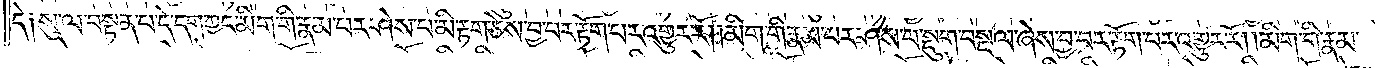དེ༑ སུ་ལ་བསྟན་པ་དེ་དག་ཀྱང་མིག་གི་རྣམ་པར་ཤེས་པ་མི་རྟག་ཅེས་བྱ་བར་རྟོག་པར་འགྱུར་རོ། །མིག་གི་རྣམ་པར་ཤེས་པ་སྡུག་བསྔལ་ཞེས་བྱ་བར་རྟོག་པར་འགྱུར་རོ། །མིག་གི་རྣམ་
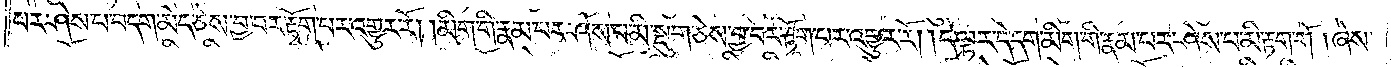པར་ཤེས་པ་བདག་མེད་ཅེས་བྱ་བར་རྟོག་པར་འགྱུར་རོ། །མིག་གི་རྣམ་པར་ཤེས་པ་མི་སྡུག་ཅེས་བྱ་བར་རྟོག་པར་འགྱུར་རོ། །དེ་ལྟར་དེ་དག་མིག་གི་རྣམ་པར་ཤེས་པ་མི་རྟག་གོ། །ཞེས་
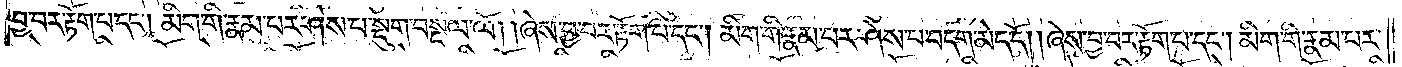བྱ་བར་རྟོག་པ་དང༌། མིག་གི་རྣམ་པར་ཤེས་པ་སྡུག་བསྔལ་ལོ། །ཞེས་བྱ་བར་རྟོག་པ་དང༌། མིག་གི་རྣམ་པར་ཤེས་པ་བདག་མེད་དོ། །ཞེས་བྱ་བར་རྟོག་པ་དང༌། མིག་གི་རྣམ་པར་
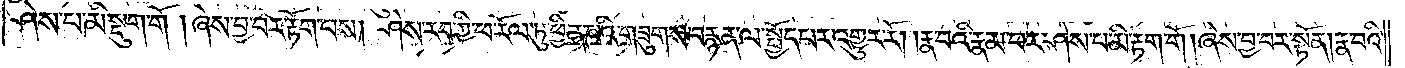ཤེས་པ་མི་སྡུག་གོ། ཞེས་བྱ་བར་རྟོག་པས། ཤེས་རབ་ཀྱི་ཕ་རོལ་ཏུ་ཕྱིན་པའི་གཟུགས་བརྙན་ལ་སྤྱོད་པར་འགྱུར་རོ། །རྣ་བའི་རྣམ་པར་ཤེས་པ་མི་རྟག་གོ། ཞེས་བྱ་བར་སྟོན། རྣ་བའི་
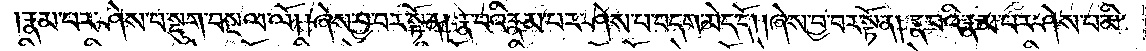རྣམ་པར་ཤེས་པ་སྡུག་བསྔལ་ལོ། །ཞེས་བྱ་བར་སྟོན། རྣ་བའི་རྣམ་པར་ཤེས་པ་བདག་མེད་དོ། །ཞེས་བྱ་བར་སྟོན། རྣ་བའི་རྣམ་པར་ཤེས་པ་མི་
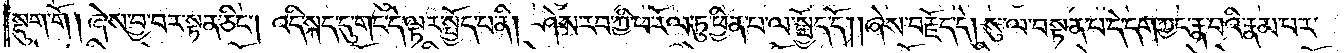སྡུག་གོ། ཞེས་བྱ་བར་སྟོན་ཅིང༌། འདི་སྐད་དུ་གང་དེ་ལྟར་སྤྱོད་པ་ནི། ཤེས་རབ་ཀྱི་ཕ་རོལ་ཏུ་ཕྱིན་པ་ལ་སྤྱོད་དོ། །ཞེས་བརྗོད་དེ། སུ་ལ་བསྟན་པ་དེ་དག་ཀྱང་རྣ་བའི་རྣམ་པར་
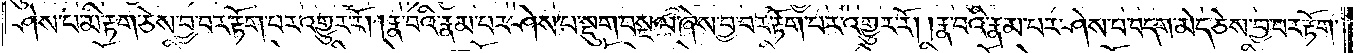ཤེས་པ་མི་རྟག་ཅེས་བྱ་བར་རྟོག་པར་འགྱུར་རོ། །རྣ་བའི་རྣམ་པར་ཤེས་པ་སྡུག་བསྔལ་ཞེས་བྱ་བར་རྟོག་པར་འགྱུར་རོ། །རྣ་བའི་རྣམ་པར་ཤེས་པ་བདག་མེད་ཅེས་བྱ་བར་རྟོག་
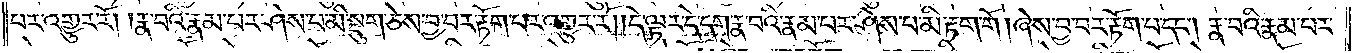པར་འགྱུར་རོ། །རྣ་བའི་རྣམ་པར་ཤེས་པ་མི་སྡུག་ཅེས་བྱ་བར་རྟོག་པར་འགྱུར་རོ། །དེ་ལྟར་དེ་དག་རྣ་བའི་རྣམ་པར་ཤེས་པ་མི་རྟག་གོ། ཞེས་བྱ་བར་རྟོག་པ་དང༌། རྣ་བའི་རྣམ་པར་
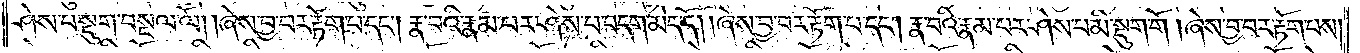ཤེས་པ་སྡུག་བསྔལ་ལོ། །ཞེས་བྱ་བར་རྟོག་པ་དང༌། རྣ་བའི་རྣམ་པར་ཤེས་པ་བདག་མེད་དོ། །ཞེས་བྱ་བར་རྟོག་པ་དང༌། རྣ་བའི་རྣམ་པར་ཤེས་པ་མི་སྡུག་གོ། ཞེས་བྱ་བར་རྟོག་པས།
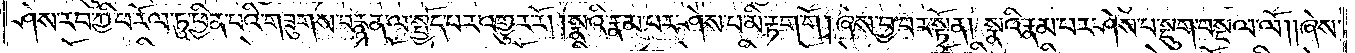ཤེས་རབ་ཀྱི་ཕ་རོལ་ཏུ་ཕྱིན་པའི་གཟུགས་བརྙན་ལ་སྤྱོད་པར་འགྱུར་རོ། །སྣའི་རྣམ་པར་ཤེས་པ་མི་རྟག་གོ། ཞེས་བྱ་བར་སྟོན། སྣའི་རྣམ་པར་ཤེས་པ་སྡུག་བསྔལ་ལོ། །ཞེས་
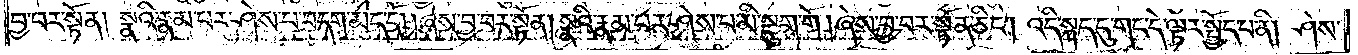བྱ་བར་སྟོན། སྣའི་རྣམ་པར་ཤེས་པ་བདག་མེད་དོ། །ཞེས་བྱ་བར་སྟོན། སྣའི་རྣམ་པར་ཤེས་པ་མི་སྡུག་གོ། ཞེས་བྱ་བར་སྟོན་ཅིང༌། འདི་སྐད་དུ་གང་དེ་ལྟར་སྤྱོད་པ་ནི། ཤེས་
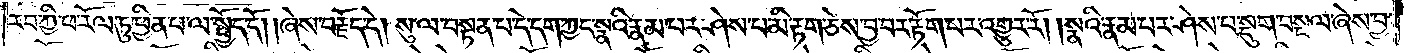རབ་ཀྱི་ཕ་རོལ་ཏུ་ཕྱིན་པ་ལ་སྤྱོད་དོ། །ཞེས་བརྗོད་དེ། སུ་ལ་བསྟན་པ་དེ་དག་ཀྱང་སྣའི་རྣམ་པར་ཤེས་པ་མི་རྟག་ཅེས་བྱ་བར་རྟོག་པར་འགྱུར་རོ། །སྣའི་རྣམ་པར་ཤེས་པ་སྡུག་བསྔལ་ཞེས་བྱ་
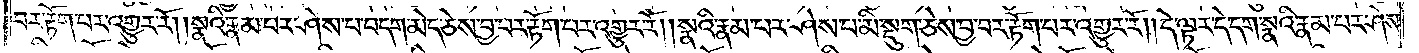བར་རྟོག་པར་འགྱུར་རོ། །སྣའི་རྣམ་པར་ཤེས་པ་བདག་མེད་ཅེས་བྱ་བར་རྟོག་པར་འགྱུར་རོ། །སྣའི་རྣམ་པར་ཤེས་པ་མི་སྡུག་ཅེས་བྱ་བར་རྟོག་པར་འགྱུར་རོ། །དེ་ལྟར་དེ་དག་སྣའི་རྣམ་པར་ཤེས་
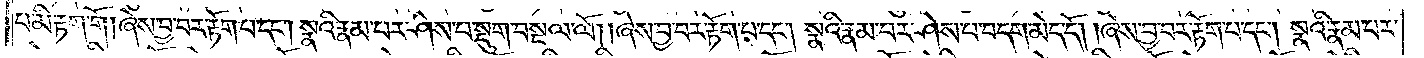པ་མི་རྟག་གོ། ཞེས་བྱ་བར་རྟོག་པ་དང༌། སྣའི་རྣམ་པར་ཤེས་པ་སྡུག་བསྔལ་ལོ། །ཞེས་བྱ་བར་རྟོག་པ་དང༌། སྣའི་རྣམ་པར་ཤེས་པ་བདག་མེད་དོ། །ཞེས་བྱ་བར་རྟོག་པ་དང༌། སྣའི་རྣམ་པར་
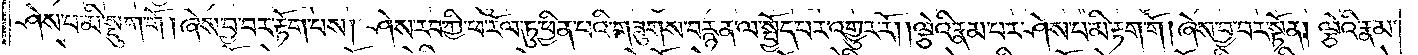ཤེས་པ་མི་སྡུག་གོ། ཞེས་བྱ་བར་རྟོག་པས། ཤེས་རབ་ཀྱི་ཕ་རོལ་ཏུ་ཕྱིན་པའི་གཟུགས་བརྙན་ལ་སྤྱོད་པར་འགྱུར་རོ། །ལྕེའི་རྣམ་པར་ཤེས་པ་མི་རྟག་གོ། ཞེས་བྱ་བར་སྟོན། ལྕེའི་རྣམ་
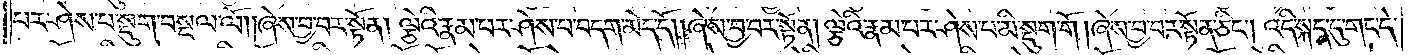པར་ཤེས་པ་སྡུག་བསྔལ་ལོ། །ཞེས་བྱ་བར་སྟོན། ལྕེའི་རྣམ་པར་ཤེས་པ་བདག་མེད་དོ། །ཞེས་བྱ་བར་སྟོན། ལྕེའི་རྣམ་པར་ཤེས་པ་མི་སྡུག་གོ། ཞེས་བྱ་བར་སྟོན་ཅིང༌། འདི་སྐད་དུ་གང་དེ་
